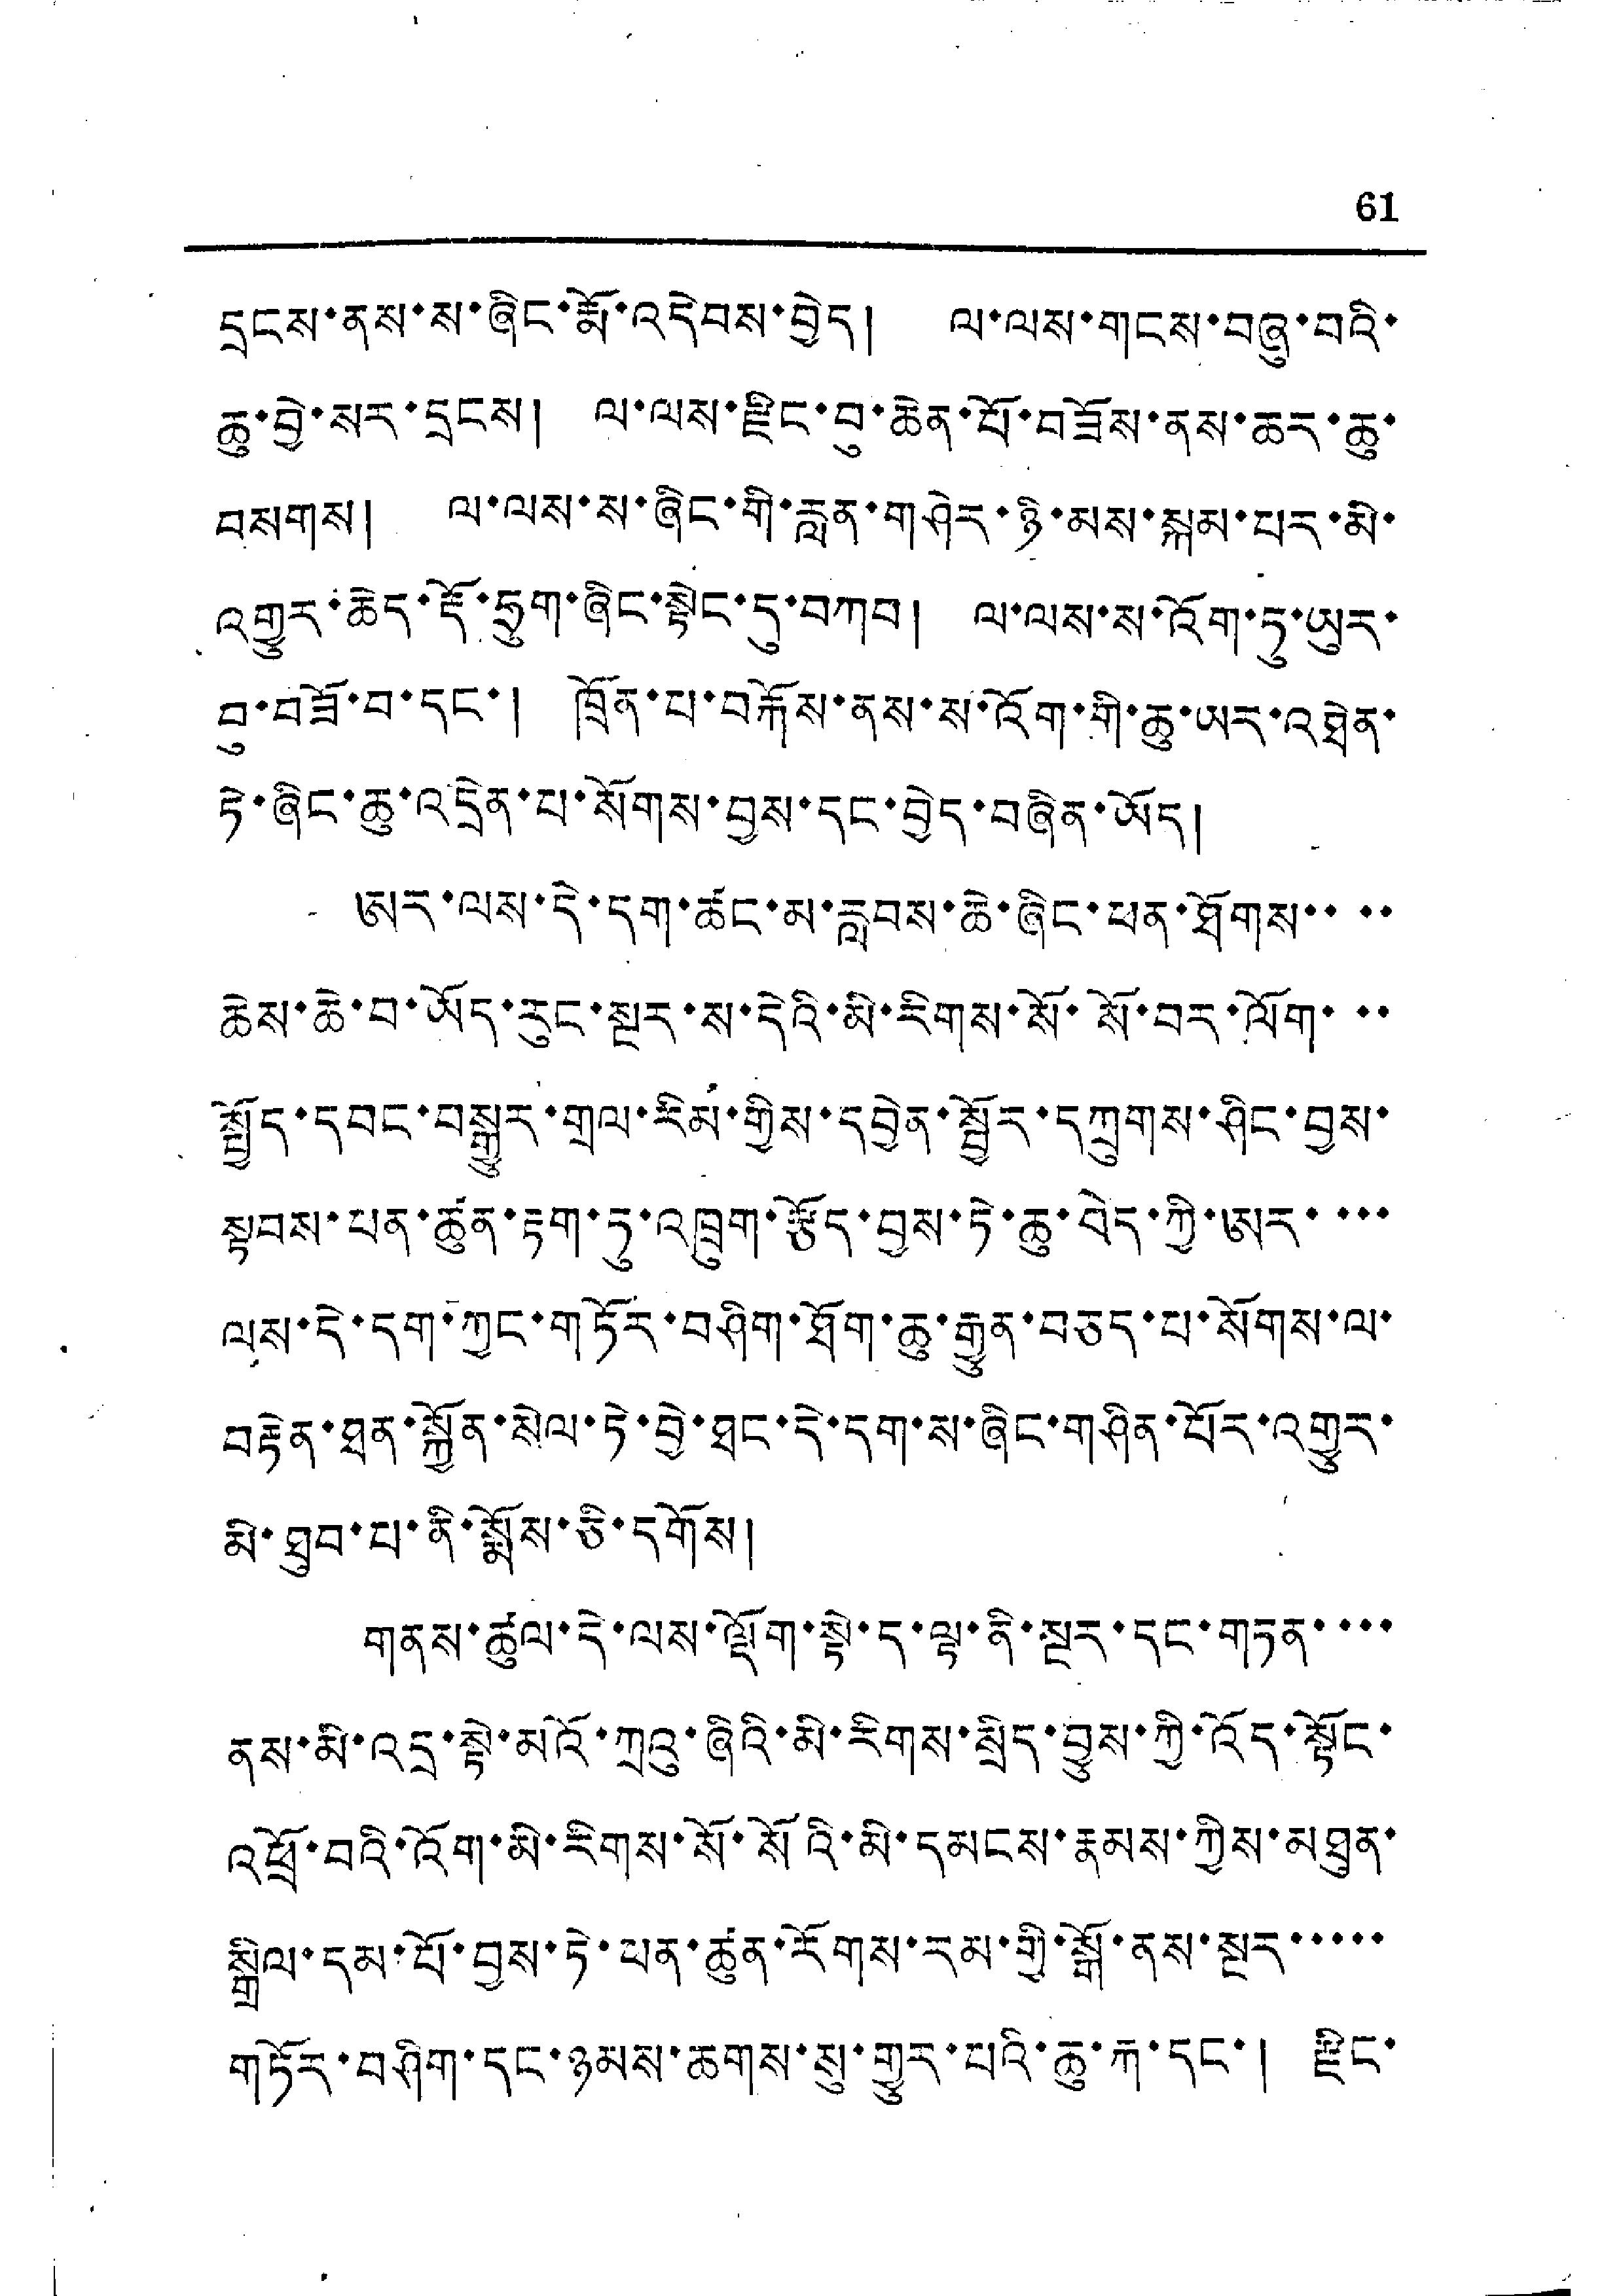61
དྲངས་ནས་ས་ཞིང་རྨོ་འདེབས་བྱེད། ལ་ལས་གངས་བཞུ་བའི་
ཆུ་བྱེ་སར་དྲངས། ལ་ལས་རྫིང་བུ་ཆེན་པོ་བཟོས་ནས་ཆར་ཆུ་
བསགས། ལ་ལས་ས་ཞིང་གི་རླན་གཤེར་ཉི་མས་སྐམ་པར་མི་
འགྱུར་ཆེད་རྡོ་ཧྲུག་ཞིང་སྟེང་དུ་བཀབ། ལ་ལས་ས་འོག་ཏུ་ཡུར་
བུ་བཟོ་བ་དང་། ཁྲོན་པ་བརྐོས་ནས་ས་འོག་གི་ཆུ་ཡར་འཐེན་
ཏེ་ཞིང་ཆུ་འདྲེན་པ་སོགས་བྱས་དང་བྱེད་བཞིན་ཡོད།
ཨར་ལས་དེ་དག་ཚང་མ་རླབས་ཆེ་ཞིང་ཕན་ཐོགས་་་་་
ཆེས་ཆེ་བ་ཡོད་རུང་སྔར་ས་དེའི་མི་རིགས་སོ་སོ་བར་ལོག་་་་
སྤྱོད་དབང་བསྒྱུར་གྲལ་རིམ་གྱིས་དབྱེན་སྦྱོར་དཀྲུགས་ཤིང་བྱས་
སྟབས་ཕན་ཚུན་རྟག་ཏུ་འཁྲུག་རྩོད་བྱས་ཏེ་ཆུ་བྱེད་ཀྱི་ཨར་་་་
ལས་དེ་དག་ཀྱང་གཏོར་བཤིག་ཐོག་ཆུ་རྒྱུན་བཅད་པ་སོགས་ལ་
བརྟེན་ཐན་སྐྱོན་སེལ་ཏེ་བྱེ་ཐང་དེ་དག་ས་ཞིང་གཤིན་པོར་འགྱུར་
མི་ཐུབ་པ་ནི་སྨོས་ཅི་དགོས།
གནས་ཚུལ་དེ་ལས་ལྡོག་སྟེ་ད་ལྟ་ནི་སྔར་དང་གཏན་་་་
ནས་མི་འདྲ་སྟེ་མའོ་ཀྲུའུ་ཞིའི་མི་རིགས་སྲིད་བྱས་ཀྱི་འོད་སྟོང་
འཕྲོ་བའི་འོག་མི་རིགས་སོ་སོའི་མི་དམངས་རྣམས་ཀྱིས་མཐུན་
སྒྲིལ་དམ་པོ་བྱས་ཏེ་ཕན་ཚུན་རོགས་རམ་གྱི་སྒོ་ནས་སྔར་་་་་
གཏོར་བཤིག་དང་ཉམས་ཆགས་སུ་གྱུར་པའི་ཆུ་རྐ་དང་། རྫིང་
